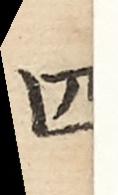四
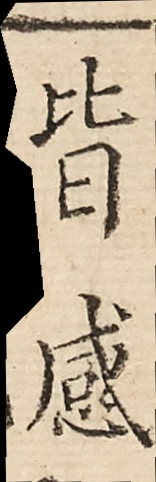皆感
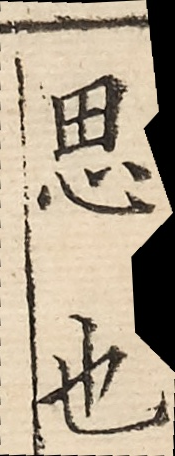思也
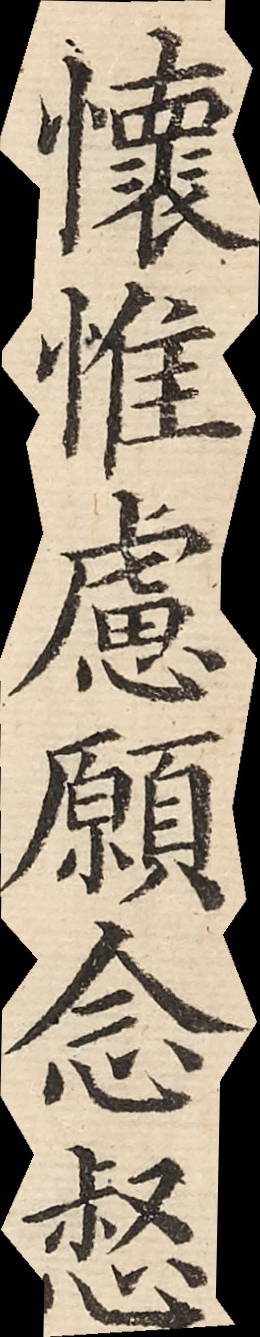懷惟慮願念惄
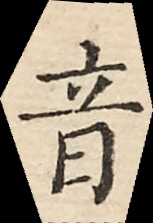音
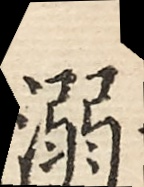溺
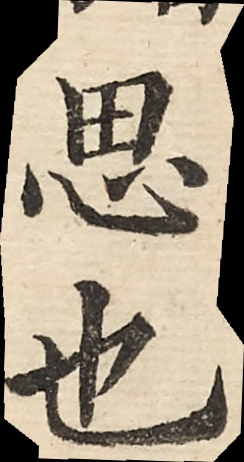思也
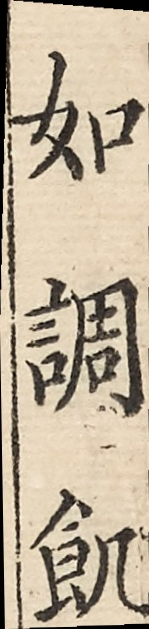如調飢
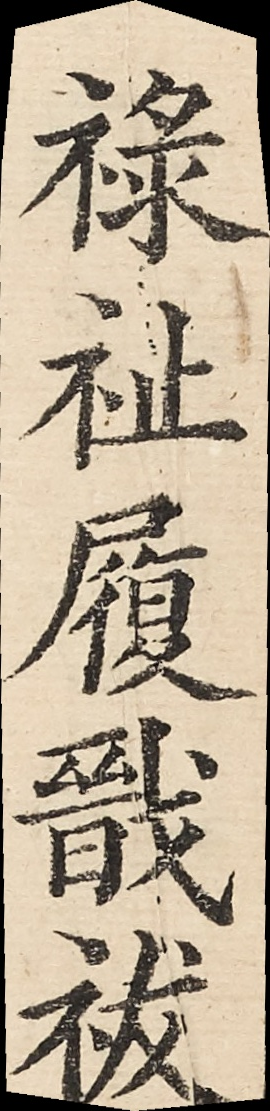祿祉履戩被
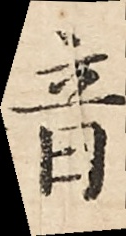音
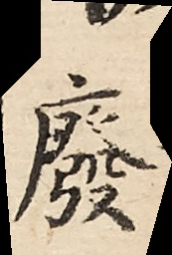廢
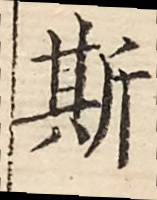斯
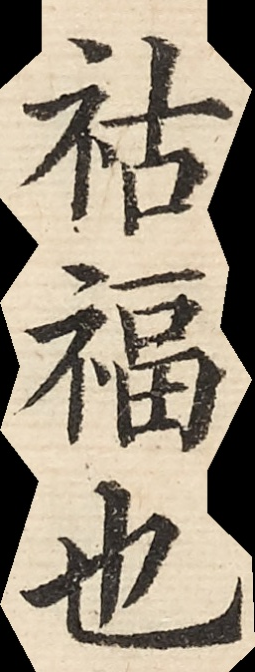祜福也
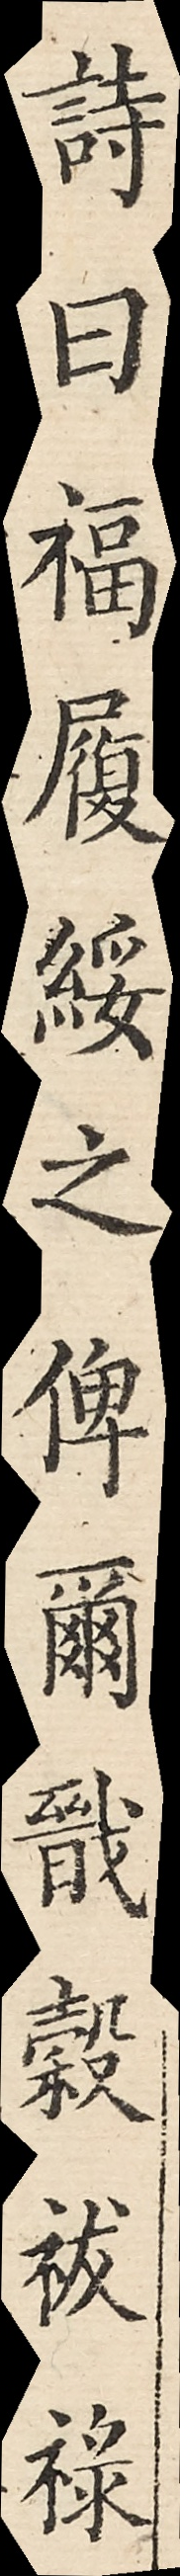詩曰福履綏之俾爾戩穀祓祿
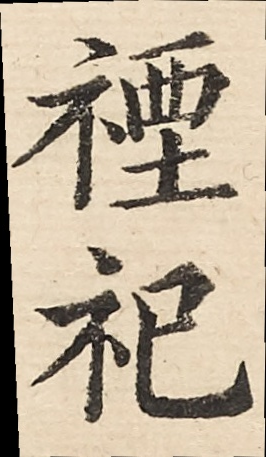禋祀
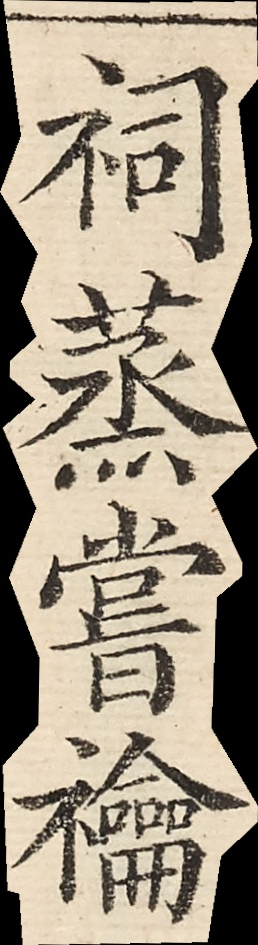祠蒸嘗禴
